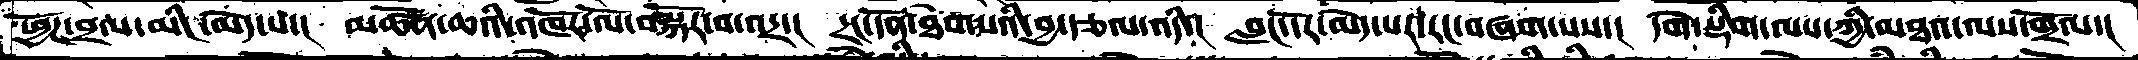ཕྱོཌ་བྲལ་མིང་མེད་པ་།  མཚོན་ཆའི་འཁོར་ལོ་བསྐོར་བ་འདྲ་།  དྲང་དོན་ཐེབ་པའི་བྱ་རྩལ་འདི་།  བླང་དོར་མེད་པར་རང་བཞག་པས་།  དགེ་སྡིག་ལས་ཀྱི་མཐའ་ལས་གྲོལ་།
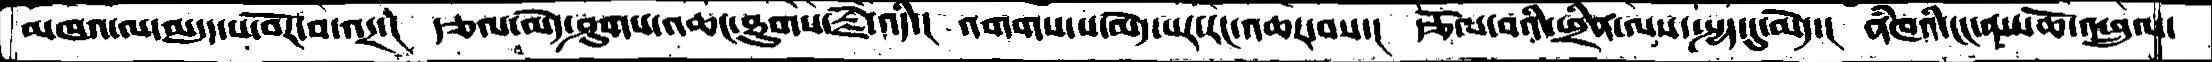མཁའ་ལ་མདུད་པ་བོར་བ་འདྲ་།  རྩལ་མེད་ཤུགས་འཆང་ཐུགས་རྗེ་འདི་།  འགགས་པ་མེད་པར་རང་འཆར་བས་།  རྩོལ་བའི་ཕྲིན་ལས་སྤྱད་དུ་མེད་།  ནཾཁའི་ངང་ནས་ཆོ་འཕྲུལ་
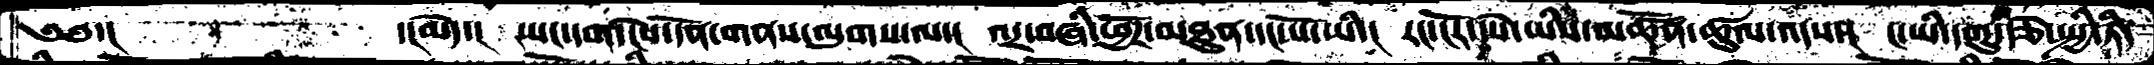༄༅་།       ་།མེད་།  ཡང་དག་ངེས་དོན་གནས་ལུགས་ལ་།  འདྲ་བཞི་ཕྱོཌ་མཐུན་དང་པོ་ཡི་།  རང་ངོར་དཔེ་ཡིས་མཚོན་ཚུལ་འདས་།  ང་ཡི་དགུ་རྩེ་སྤྱི་ཏི་
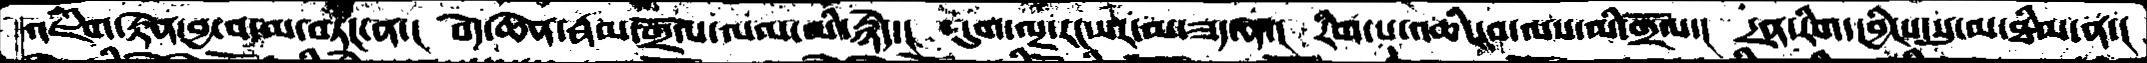འཇིག་རྟེན་བྱ་བ་མ་བཏང་ན་།  བདེ་ཆེན་རྣམ་གྲོལ་ལམ་མི་རྙེད་།  དུག་ལྔ་རང་སར་མ་ཟད་ན་།  རིག་པ་འཆིང་བ་ལས་མི་གྲོལ་།  དྲན་རིག་དབྱིངས་སུ་མ་ཐིམ་ན་།
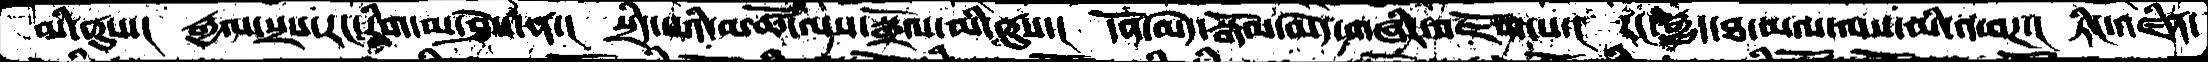མི་ནུས་།  རྒྱལ་སྲས་རང་རིག་མ་ཤེས་ན་།  སྲིད་པའི་མཚོ་ལས་སྒྲོལ་མི་ནུས་།  དོན་མེད་སྒོམ་མེད་གཞིར་འཇོག་པ་།  རང་རྒྱུད་ཐ་མལ་ལས་མི་འཕཌ་། ཏིང་འཛིན་
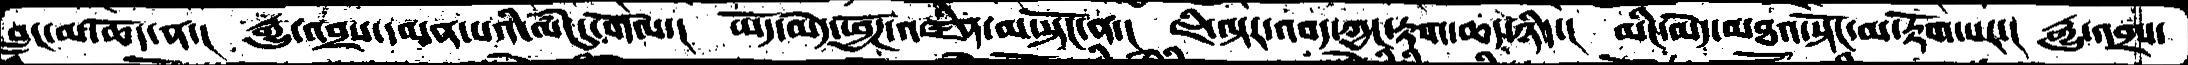བླང་མ་ཆོད་ན་།  རྒྱུ་འབྲས་དམན་པའི་ལཾ་དུ་གོལ་།  ཡོད་མེད་ཕྱོཌ་འཛིན་མ་སྟོང་ན་།  ཇི་ལྟར་འབད་ཀྱང་རྟག་ཆད་ཉིད་།  མིང་མེད་མཐའ་སྟོང་མ་རྟོག་པར་།  རྒྱུ་འབྲས་
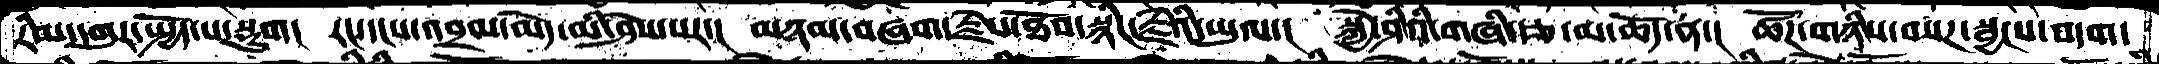རིམ་དགུར་སྤྱོད་པ་སྡུག།  རང་དངས་འབྲལ་མེད་མི་ཤེས་པར་།  མཉམ་བཞག་རྗེས་ཐོབ་སྙིང་རྗེའི་ཡུལ་།  སྐྱེ་ཤིའི་གཞི་རྩ་མ་ཆོད་ན་།  ཚོཌ་གཉིས་བསཌ་སྦྱངས་བདག་
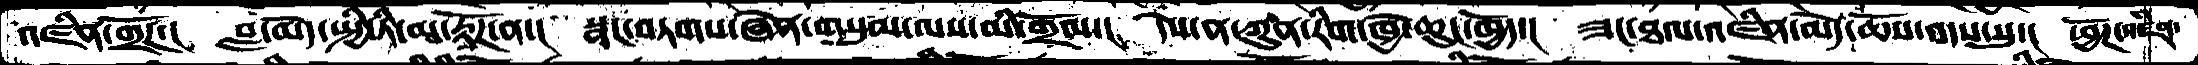འཛིན་གྲོཌ་།  བླ་མེད་སྤྱི་ཏི་མ་རྟོཌ་ན་།  སྣང་བཏགས་ཞེན་གསུམ་ལས་མི་གྲོལ་།  དེས་ན་ཀུན་རིག་ཁྱེ་ཆུང་ཁྱོད་།  ཟང་ཐལ་འཛིན་མེད་ཆོས་འདས་སུ་།  ཕྱོཌ་འཛིན་
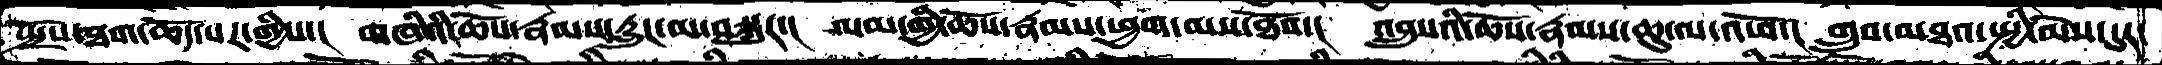སྤྲོས་ཐག་ཆོད་པར་གྱིས་།  གཞིའི་ཆོས་རྣམས་རླུང་མ་བསྐུར་།  ལམ་གྱི་ཆོས་རྣམས་ཕྱག་མས་ཐོབ་།  འབྲུསའི་ཆོས་རྣམས་ཆུ་ལ་འཕོ་།  གྲུབ་མཐའ་སྤྱི་མེས་དུར་
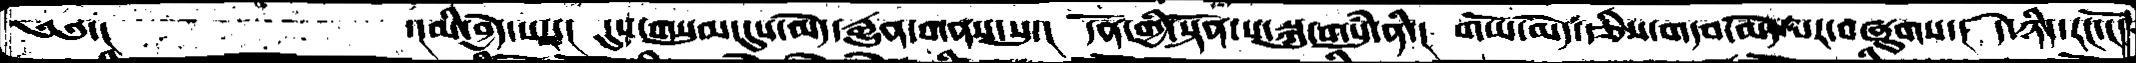༄༅་།           དང་མི་བྱེད་པས།   དུས་གསུམ་དུས་མེད་རྒྱུན་གནས་སུ་།  དོན་གྱི་སྟོན་པ་སྐུ་གསུཾ་ནི་།  གཡོ་མེད་རྩིས་གདབ་མེད་པར་བཞུགས་།  དེ་ཉིད་རང་ངོ་
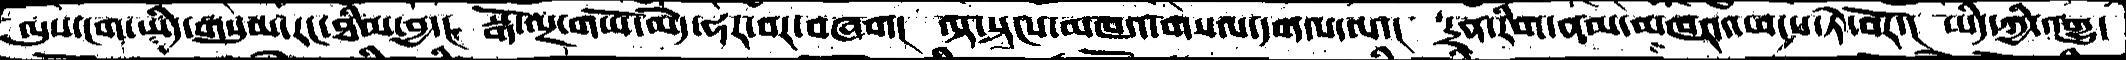ལུས་ངག་ཡིད་གསུམ་རང་ཐིམ་བྱ་།  སྒོ་ལྔ་གཡོ་མེད་ཧར་བར་བཞག།  ལྟ་སྟངས་མཁའ་གསལ་དག་པ་ལ་།  དྲན་རིག་ནམ་མཁར་འཕངས་ཏེ་བོར་།  ཡིད་ཀྱི་འགྱུ་
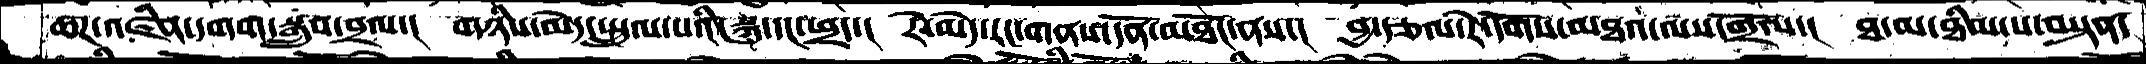ཆཌ་འཛིན་དགག་སྒྲུབ་བྲལ་།  གཉིས་མེད་སྤྲུལ་པའི་སྐུ་དང་ཕྲད་།  རེ་མེད་རང་གནས་དོན་མཐོང་ནས་།  བྱ་རྩལ་རེ་དོགས་མཐའ་ལས་གྲོལ་།  ཐ་མ་ཐིམ་པ་བསྟན་
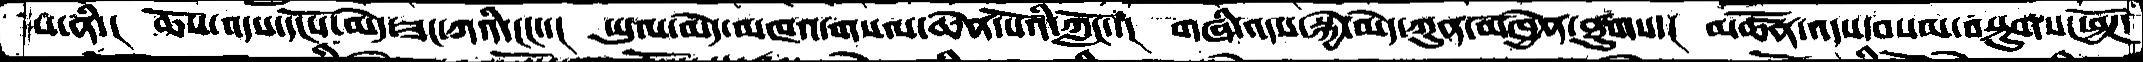པ་ནི་།  ཆོས་འདས་དངོས་མེད་ཟང་ཀའི་ངང་་།  ཡུལ་མེད་མཁའ་གསལ་ཆེན་པོའི་ཀློང་་།  གཞི་འདས་སྐྱེ་མེད་ཀུན་མཁྱེན་ཐུགས་།  མཚོན་འདས་བསམ་བསྟུགས་ཕྱོཌ་
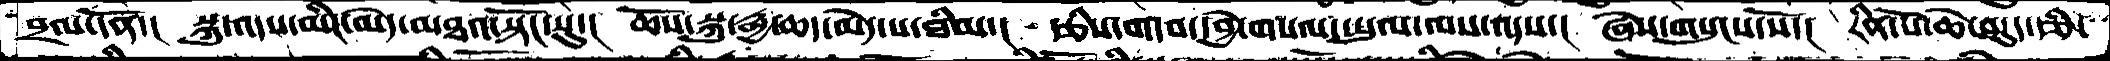བྲལ་དོན་།  སྐུ་འདས་མིང་མེད་མཐའ་སྟོང་སུ་།   ཆོས་སྐུ་རྒྱ་ཆད་མེད་པ་ཐིམ་།  རྩིས་གདབ་དབྱེ་གསལ་ཡུལ་ལས་འདས་།  ཞེས་གསུངས་སོ་།  རིན་པོ་ཆེ་བདུད་རྩི་
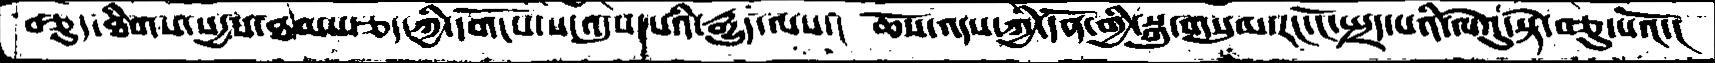བཅུད་ཐིགས་སདྱས་ཐམས་ཅད་ཀྱི་དགོངས་པ་འདུས་པའི་རྒྱུད་ལས་།  ཆོས་འདས་ཀྱི་དོན་གྱི་སྐུ་གསུམ་རང་ངོ་སྤྲད་པའི་ལེའུ་སྟེ་བཅུ་པའོ་།
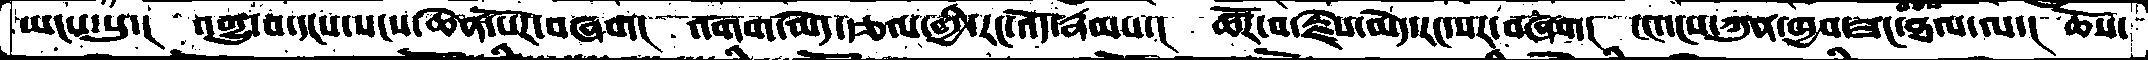ཡངས་སུ་།  འགྱུ་བ་དངས་སངས་ཆེན་པོར་བཞག།  འགག་མེད་རྩལ་གྱི་རང་འོད་རྣམས་།  ཚོར་བ་རྗེས་མེད་རང་སར་བཞག།   ངང་དངས་ཀུན་ཁྱབ་ཟང་ཐལ་ལ་།  ཆོས་
